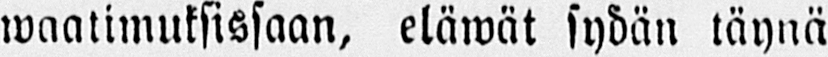waatimuksissaan, eläwät sydän täynä
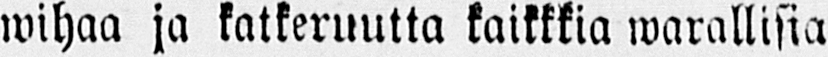wihaa ja katkeruutta kaikkkia warallisia
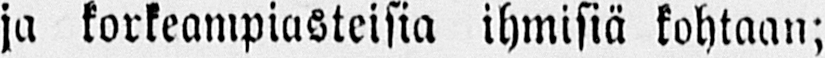ja korkeampiasteisia ihmisiä kohtaan;
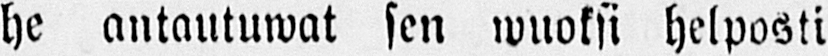he antautuwat sen wuoksi helposti
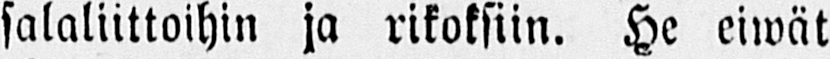salaliittoihin ja rikoksiin. He eiwät
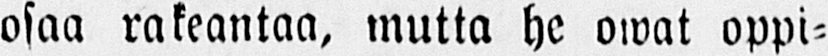osaa rakeantaa, mutta he owat oppi-
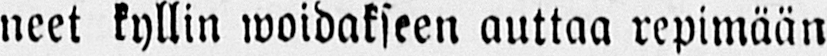neet kyllin woidakseen auttaa repimään
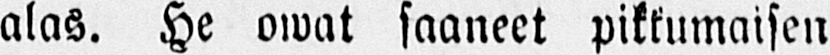alas. He owat saaneet pikkumaisen
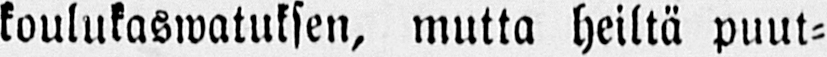koulukaswatuksen, mutta heiltä puut-
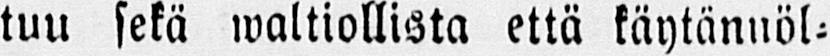tuu sekä waltiollista että käytännöl-
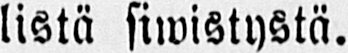listä siwistystä.
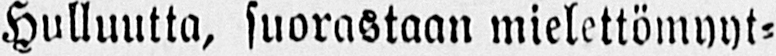Hulluutta, suorastaan mielettömyyt-
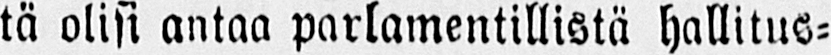tä olisi antaa parlamentillistä hallitus-
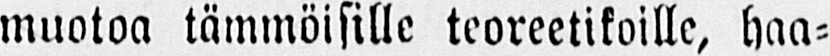muotoa tämmöisille teoreetikoille, haa-
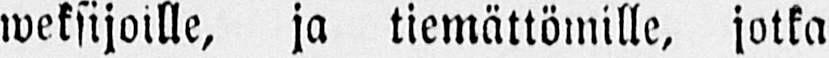weksijoille, ja tiemättömille, jotka
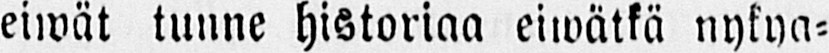eiwät tunne historiaa eiwätkä nykya-
